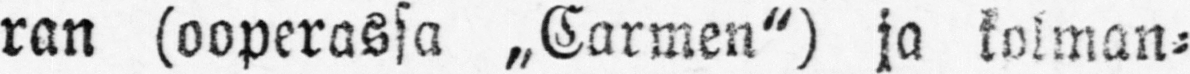ran (ooperassa „Carmen") ja kolman-
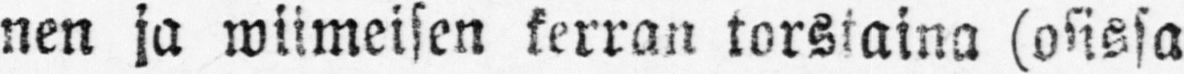nen ja wiimeisen kerran torstaina (osissa
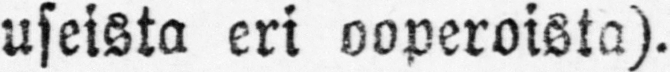useista eri ooperoista).
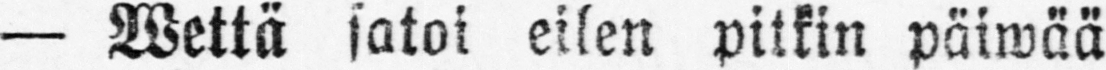— Wettä satoi eilen pitkin päiwää
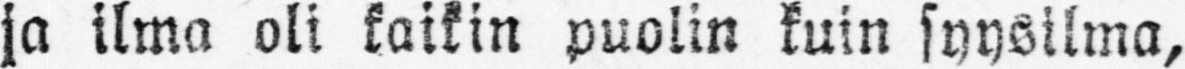ja ilma oli kaikin puolin kuin syysilma,
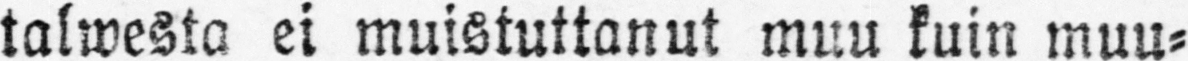talwesta ei muistuttanut muu kuin muu-
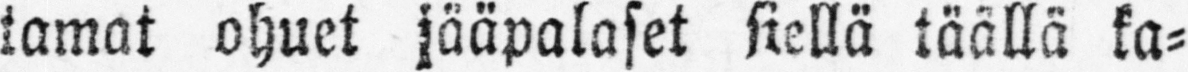tamat ohuet jääpalaset siellä täällä ka-
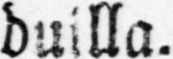duilla.
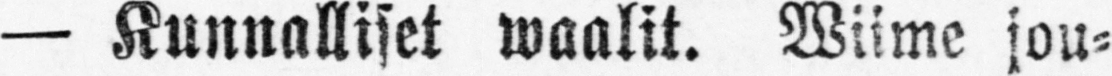— Kunnalliset waalit. Wiime jou-
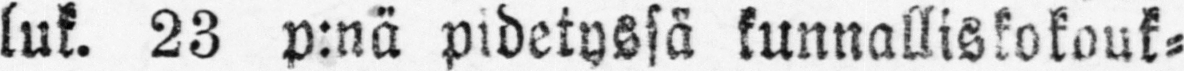luk. 23 p:nä pidetyssä kunnralliskokouk-
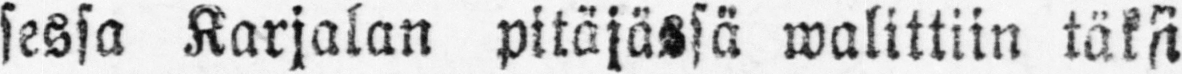sessa Karjalan pitäjässä walittiin täksi
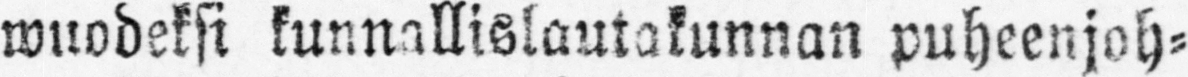wuodeksi kunnallislautakunnan puheenjoh-
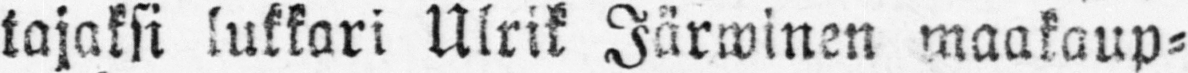tajaksi lukkari Ulrik Järwinen maakaup-
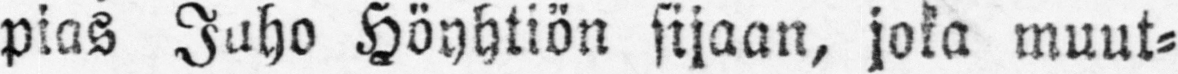pias Juho Höyhtiön sijaan, joka muut-
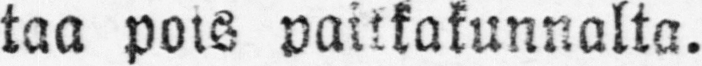taa pois paikkakunnalta.
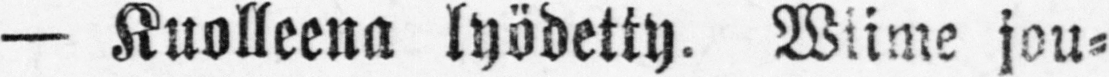— Kuolleena lyödetty. Wiime jou-
